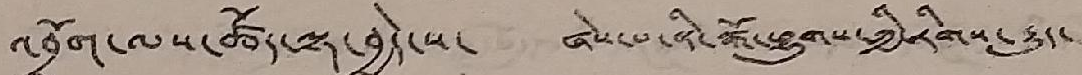འབྲོག་ལས་ཚོད་ལྟ་བྱེད་ས་ ཞེས་པ་ནི་སྒོ་ཕྱུགས་ཀྱི་རིགས་རྒྱུད་
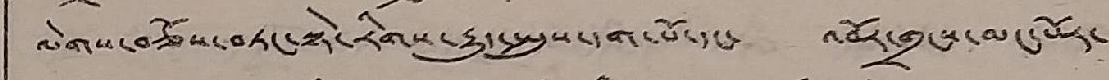ལེགས་བཅོས་བཏང་སྟེ་རིགས་རྒྱུད་སྤུས་དག་པོ་དང་ འབོར་གྲངས་མང་པོར་
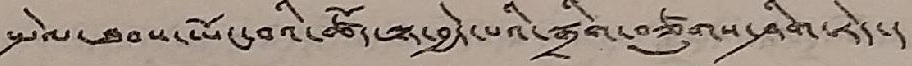སྤེལ་ཐབས་ཡོང་བའི་ཚོད་ལྟ་བྱེད་པའི་སྒྲིག་བཙུགས་ཤིག་རེད་།
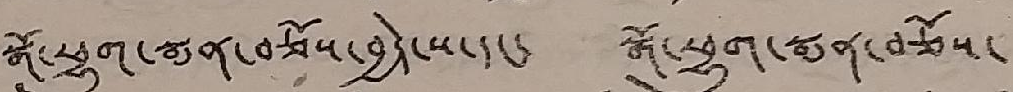སྒོ་ཕྱུག་སྨན་བཅོས་བྱེད་པ་དང་ སྒོ་ཕྱུག་སྨན་བཅོས་
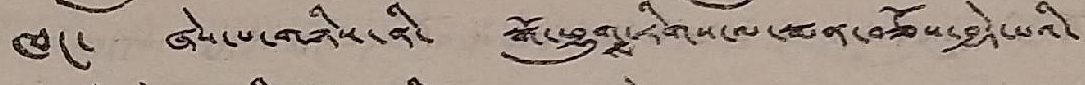ཁང་ ཞེས་པ་གཉིས་ནི་ སྒོ་ཕྱུགས་རིགས་ལ་སྨན་བཅོས་བྱེད་པའི་
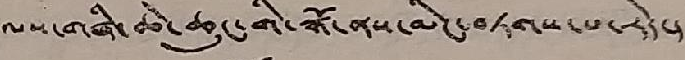ལས་གཞི་ཆེ་ཆུང་གི་སྒོ་ནས་མིང་བཏགས་པ་རེད་།
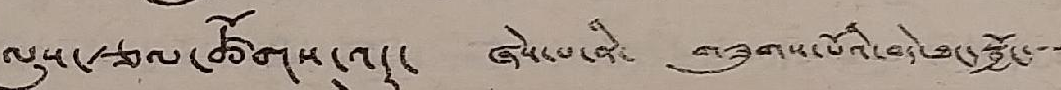ལུས་རྩལ་ཚོགས་འདུ་ ཞེས་པ་ནི་ གཟུགས་པོའི་བདེ་ཐང་སྦྱོང་་་
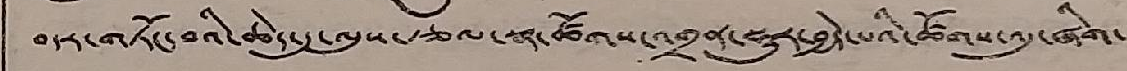བདར་གཏོང་བའི་ཆེད་དུ་ལུས་རྩལ་སྣ་ཚོགས་འགྲན་སྡུར་བྱེད་པའི་ཚོགས་འདུ་ཞིག་
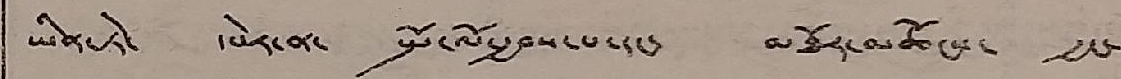ཡིན་ཏེ་ དཔེར་ན་ སྤོ་ལོ་བྱས་པ་དང་ མཐོར་མཆོངས་ རྒྱང་
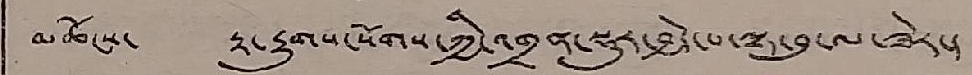མཆོངས་ རྟ་རྒྱུགས་སོགས་ཀྱི་འགྲན་སྡུར་བྱེད་པ་ལྟ་བུ་ལ་ཟེར་།
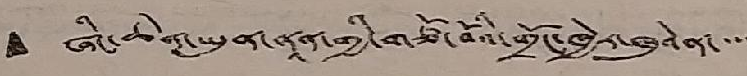• ཞིང་ཆེན་ཡུན་ནཱན་གྱི་གཙོ་བོའི་གྲོང་ཁྱེར་ཁུའེ་ན་་་་
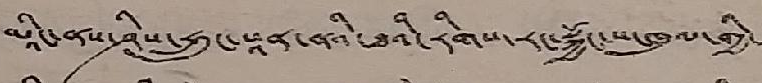མིའང་ནས་ཤིས་ཧྲུང་ཕཱན་ནའི་ཐའི་རིགས་རང་སྐྱོང་ས་ཁུལ་གྱི་
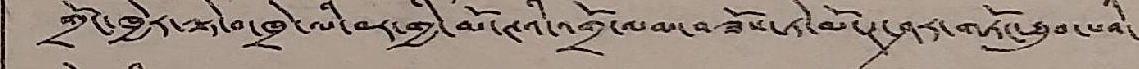གྲོང་ཁྱེར་ལྟེ་བ་ཁྲེ་ལི་བར་གྱི་མོ་ཊའི་འགྲོ་ལམ་བཟོས་ཏེ་མོ་ཊ་ཤར་གཏོང་ཐུབ་པའི་
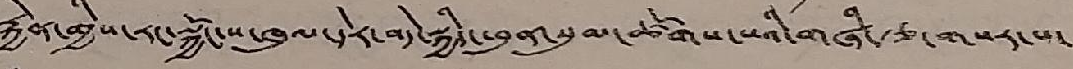རྐྱེན་གྱིས་རང་སྐྱོང་ས་ཁུལ་དེར་བདེ་སྐྱིད་ཕུན་སུམ་ཚོགས་པའི་གཞི་རྩ་གསར་པ་
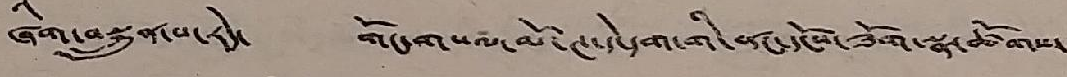ཞིག་བསྐྲུན་པ་རེད་ གོང་གསལ་མོ་ཊ་དེ་དག་གི་ནང་དངོས་ཟོག་སྣ་ཚོགས་
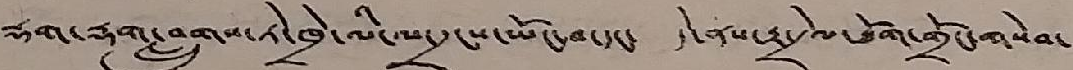རྡག་རྡག་བླུགས་ཏེ་ཁྲེ་ལི་ས་དྲངས་ཡོང་བ་དང་ དེ་ནས་རྟ་དྲེལ་ཐོག་གྲོང་གསེབ་
